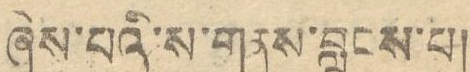ཞེས་པའི་ས་གནས་བླངས་པ།
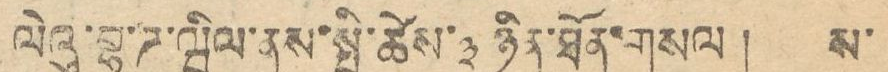ལེའུ་བྷ་ཌ་ལྦིལ་ནས་སྤྱི་ཚེས་ ༣ ཉིན་ཐོན་གསལ། ས་
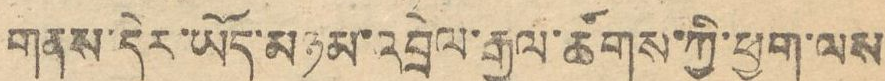གནས་དེར་ཡོད་མཉམ་འབྲེལ་རྒྱལ་ཚོགས་ཀྱི་ཕྱག་ལས
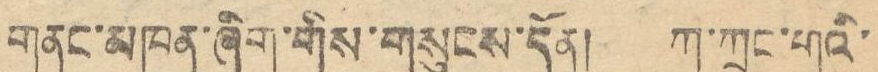གནང་མཁན་ཞིག་གི་གསུངས་དོན། ཀ་ཀྲང་གའི་
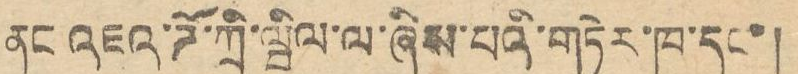ནང འཇའ་ཌོ་ཀྲི་ཝིལ་ལ་ཞེས་པའི་གཏེར་ཁ་དང་།
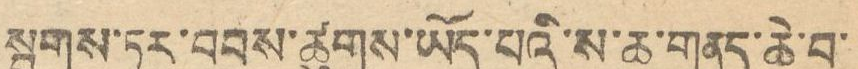སྦྲགས་ཏར་བབས་ཚུགས་ཡོད་པའི་ས་ཆ་གནད་ཆེ་བ་
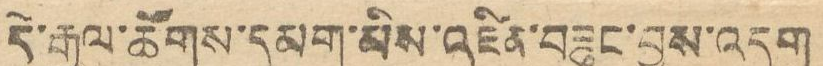དེ་རྒྱལ་ཚོགས་དམག་མིས་འཛིན་བཟུང་བྱས་འདུག
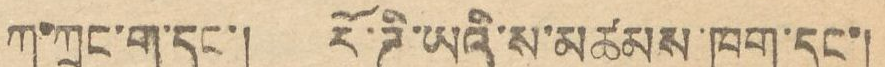ཀ་ཀྲང་ག་དང་། རོ་ཌི་ཡའི་ས་མཚམས་ཁག་དང་།
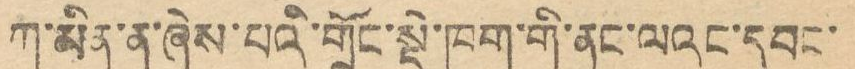ཀ་མིན་ན་ཞེས་པའི་གྲོང་སྡེ་ཁག་གི་ནང་ལའང་དབང་
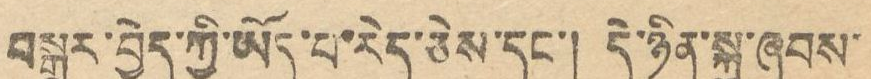བསྒྱུར་བྱེད་ཀྱི་ཡོད་པ་རེད་ཅེས་དང་། དེ་ཉིན་སྐུ་ཞབས་
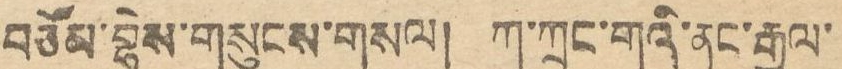བཅོམ་བྷེས་གསུངས་གསལ། ཀ་ཀྲང་གའི་ནང་རྒྱལ་
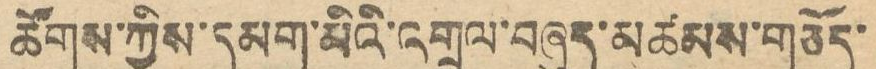ཚོགས་ཀྱིས་དམག་མིའི་འགྲུལ་བཞུད་མཚམས་གཅོད་
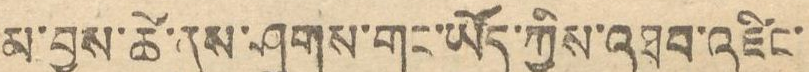མ་བྱས་ཚེ་ནས་ཤུགས་གང་ཡོད་ཀྱིས་འཐབ་འཛིང་
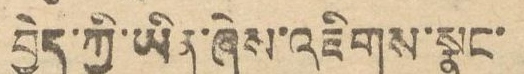བྱེད་ཀྱི་ཡིན་ཞེས་འཇིགས་སྣང་
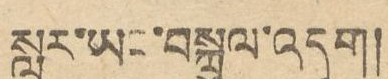སླར་ཡང་བསྐྲུལ་འདུག།
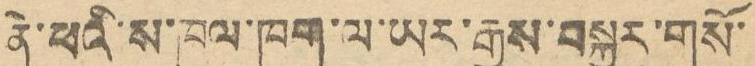ནེ་ཕའི་ས་ཁུལ་ཁག་ལ་ཡར་རྒྱས་བསྐྱར་གསོ་
